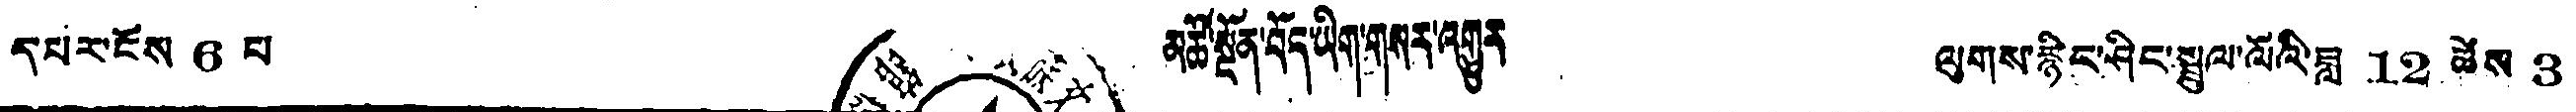དཔར་ངོས 6 པ མཆོ་སྔོན་བོད་ཡིག་གསར་འགྱུར ལུགས་རྙིང་ཤིང་སྦྲུལ་ལོའི་ཟླ 12 ཚེས 3
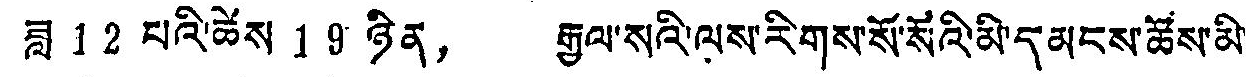ཟླ 12 པའི་ཚེས 19 ཉིན， རྒྱལ་སའི་ལས་རིགས་སོ་སོའི་མི་དམངས་ཚོས་མི་
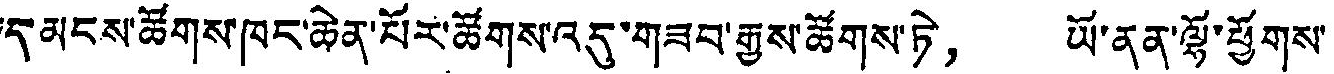དམངས་ཚོགས་ཁང་ཆེན་པོར་ཚོགས་འདུ་གཟབ་རྒྱས་ཚོགས་ཏེ， ཡོ་ནན་ལྷོ་ཕྱོགས་
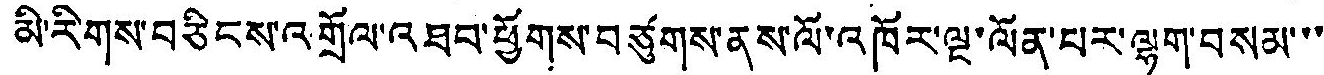མི་རིགས་བཅིངས་འགྲོལ་འཐབ་ཕྱོགས་བཙུགས་ནས་ལོ་འཁོར་ལྔ་ལོན་པར་ལྷག་བསམ་་་
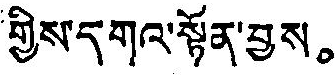གྱིས་དགའ་སྟོན་བྱས。
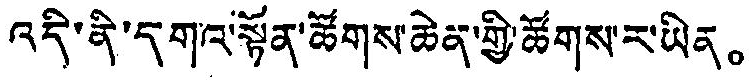འདི་ནི་དགའ་སྟོན་ཚོགས་ཆེན་གྱི་ཚོགས་ར་ཡིན。
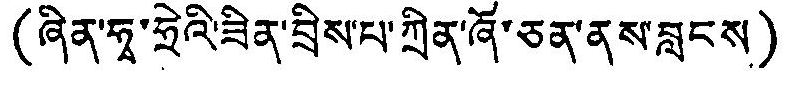(ཞིན་ཧྭ་ཧྲེའི་ཟིན་བྲིས་པ་ཀྲིན་ཞོ་ཅན་ནས་བླངས)
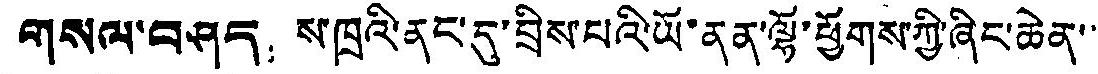གསལ་བཤད： ས་ཁྲའི་ནང་དུ་བྲིས་པའི་ཡོ་ནན་ལྷོ་ཕྱོགས་ཀྱི་ཞིང་ཆེན་་
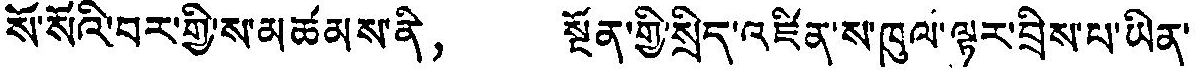སོ་སོའི་བར་གྱི་ས་མཚམས་ནི， སྔོན་གྱི་སྲིད་འཛིན་ས་ཁུལ་ལྟར་བྲིས་པ་ཡིན་
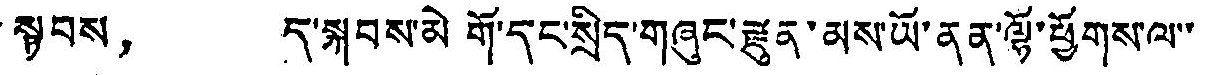སྟབས， ད་སྐབས་མེ གོ་དང་སྲིད་གཞུང་རྫུན་མས་ཡོ་ནན་ལྷོ་ཕྱོགས་ལ་་
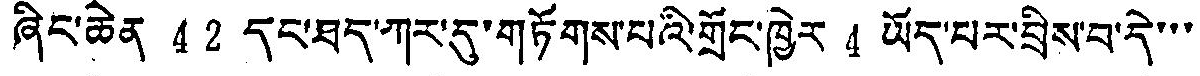ཞིང་ཆེན 42 དང་ཐད་ཀར་དུ་གཏོགས་པའི་གྲོང་ཁྱེར 4 ཡོད་པར་བྲིས་བ་དེ་་་
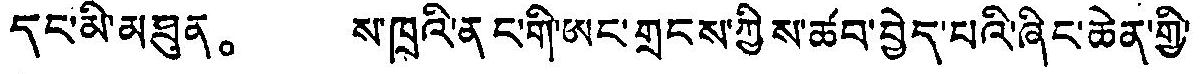དང་མི་མཐུན。 ས་ཁྲའི་ནང་གི་ཨང་གྲངས་ཀྱིས་ཚབ་བྱེད་པའི་ཞིང་ཆེན་གྱི་
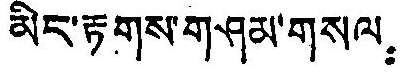མིང་རྟགས་གཤམ་གསལ：
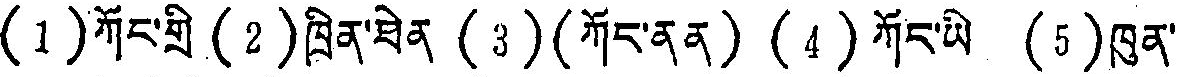(1)ཀོང་གྲི (2)ཁྲིན་ཐེན (3) (ཀོར་ནན) (4) ཀོང་ཡི (5) ཁུན་
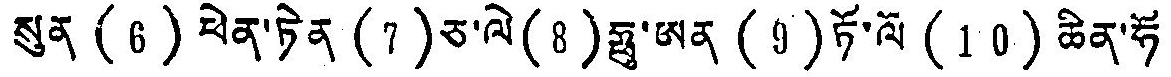སུན (6) ཕེན་ཏེན (7)ཅ་ལེ (8) ཧྥུ་ཨན་ (9) ཏོ་ལོ (10) ཆིན་ཧོ
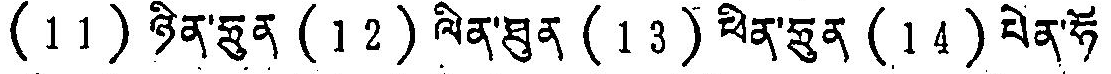(11) ཉིན་ཧྥུན་ (12) ལིན་ཐུན (13) ཕིན་ཧྲུན (14) པེན་ཧོ
